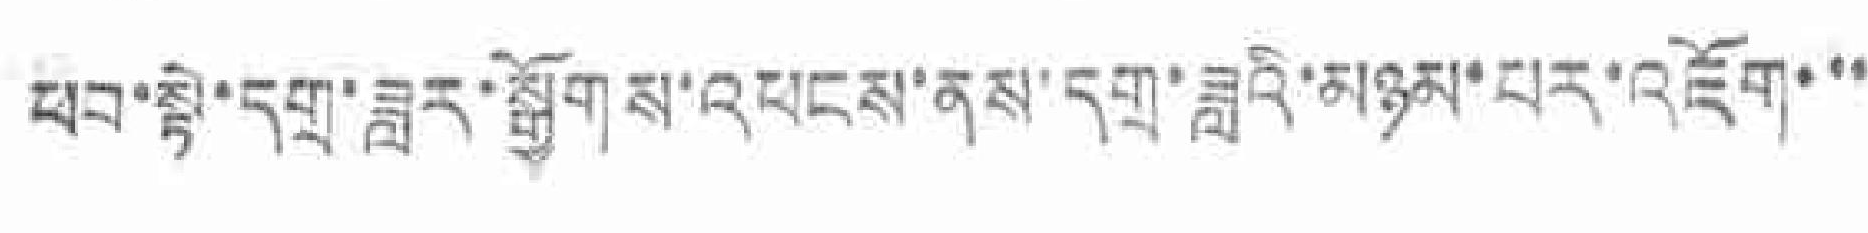ཕབ་སྟེ་དགྲ་ཟླར་སྒྱོགས་འཕངས་ནས་དགྲ་ཟླའི་མཉམ་པར་འཇོག་་་
